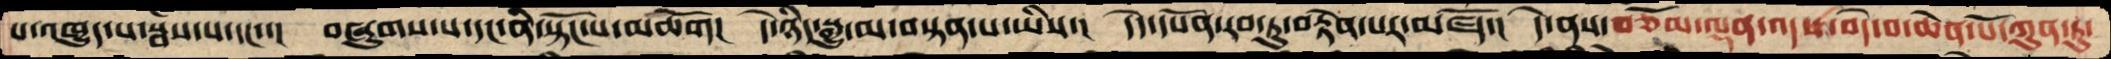པ་འཁྱུད་པ་སྦས་པ་དང་་།  བཞུགས་པ་དང་ནི་སྟོང་པ་མཆོག།  དེ་ཉིད་སྒྱུ་མ་བསྟན་པ་ཡིས་།  དེད་དཔོན་རབ་ཏུ་བརྟེན་པར་མཛོད་།  དེ་ནས་བཅོམ་ལྡན་འདས་བདེ་བ་ཆེན་པོ་ཀུན་ཏུ་
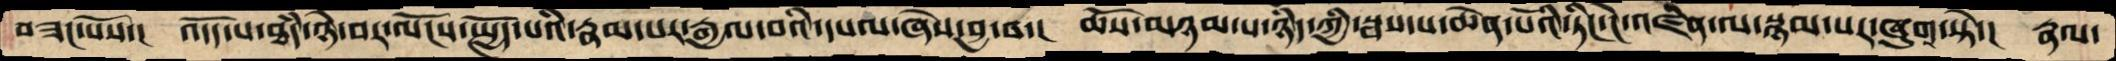བཟང་པོས་།  འོདད་པ་ཐཾད་ཉེ་བར་ལོངས་སྤྱོད་པའི་རྣམ་པར་རྒྱལ་བའི་དཔལ་ཞེས་བྱ་བ་།  ཆོས་མཉམ་པ་ཉིད་ཀྱི་སྦས་པ་ཆེན་པོའི་ཏིང་ངེ་འཛིན་ལ་སྙམ་པར་ཞུགས་ཏེ་།  རྣལ་
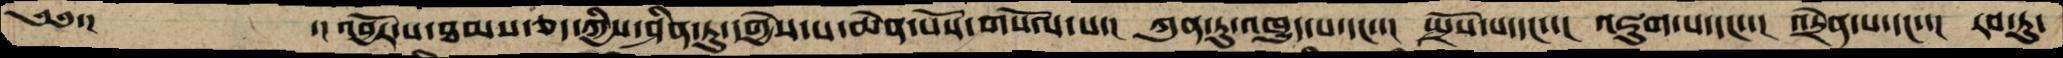༄༅་།      ་།འབྱོར་པ་ཐམས་ཅད་ཀྱིས་ཤིན་ཏུ་དགྱེས་པ་ཆེན་པོས་གསོལ་པ་།  ཀུན་ཏུ་འཁྱུད་པ་དང་་།  སྤྲོས་པ་དང་་།  འཇུག་པ་དང་་།  འདྲེན་པ་དང་་།  རབ་ཏུ་
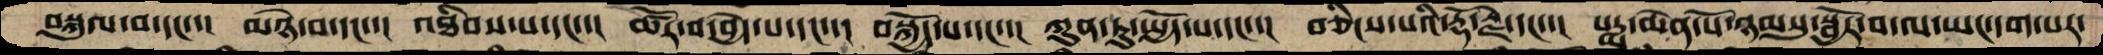བསྐུལ་བ་དང་་།  མཉེ་བ་དང་་།  འཐིབས་པ་དང་་།  ཚོར་བར་བྱེད་པ་དང་་།  བསྐྱོད་པ་དང་་།  ཀུན་ཏུ་སྤྱོད་པ་དང་་།  བཅིང་པའི་རྡོ་རྗེ་དང་་།  པདྨ་ཆེན་པོ་ཉམསུ་སྦྱོར་བ་ལ་ཡང་དག་པར་
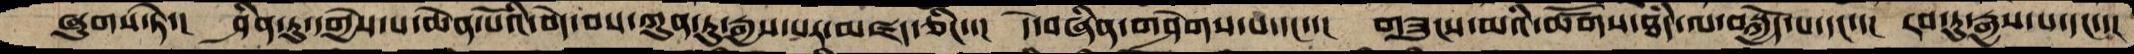ཞུགས་ཏེ་།  ཤིན་ཏུ་དགྱེས་པ་ཆེན་པོའི་བདེ་བས་ཀུན་ཏུ་རྒྱས་པར་མཛད་ཅིང་་།  དེ་བཞིན་གཤེགས་པ་དང་་།  གཟུངས་མའི་ཚོགས་ཐཾད་ལ་བསྐྱོད་པ་དང་་།  རབ་ཏུ་རྒྱས་པ་དང་་།
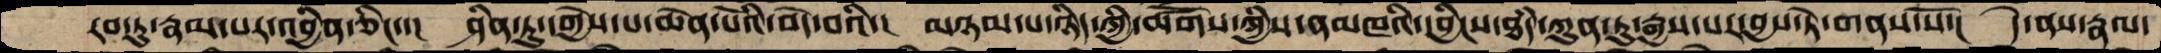རབ་ཏུ་རྣམ་པར་འབྱིན་ཅིང་་།  ཤིན་ཏུ་དགྱེས་པ་ཆེན་པོའི་བདེ་བའི་།  མཉམ་པ་ཉིད་ཀྱི་ཚོགས་ཀྱིས་ནམཁའི་དབྱིངས་ཐཾད་ཀུན་ཏུ་རྒྱས་པར་བྱས་ཏེ་གནས་སོ་།  དེ་ནས་རྣལ་
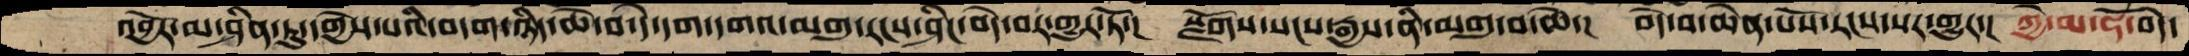འབྱོར་ལ་ཤིན་ཏུ་དགྱེས་པའི་བདག་ཉིད་ཆེ་བ་དེ་དག་དགའ་མགུ་རངས་ཤིང་བདེ་བར་གྱུར་ཏོ་།  སྫོགས་སངས་རྒྱས་ནི་མགུ་བ་ཆེ་།  བདེ་བ་ཆེན་པོས་རངས་པར་གྱུར་།  ཀྱེ་མ་ཧོ་བདེ་
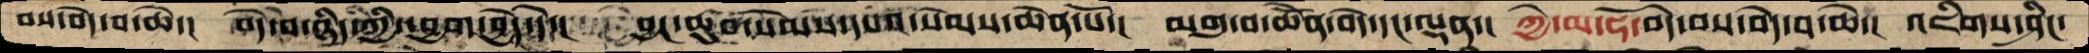བས་བདེ་བ་ཆེ་།  བདེ་བ་ཉིད་ཀྱི་ཕྱག་བྱེད་དེ་།   བྱང་ཆུབ་སེམས་དཔས་སེམས་ཆེན་པོ་།  མགུ་བ་ཆེནོ་བདེ་དང་ལྡན་།  ཀྱེ་མ་ཧོ་བདེ་བས་བདེ་བ་ཆེ་།  འཇིགས་ཤིང་
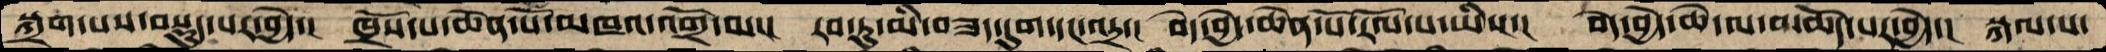སྐྲག་པས་བསྡུད་པར་བྱེད་།  ཁྲོས་པ་ཆེན་པོ་མཁའ་གྲོ་མ་།  རབ་ཏུ་མི་བཟད་དུག་དང་འདྲ་།  བདེ་བྱེད་ཆེན་པོ་རོལ་པ་ཡིས་།  བདེ་བྱེད་ཆེ་ལ་མཆོད་པར་བྱེད་།  སྐལ་པ་
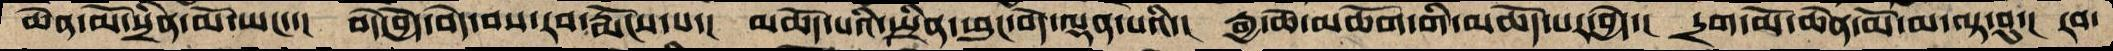ཆེན་མོ་སྲིན་མོ་ཡང་་།  བདེ་བྱེད་བདེ་བས་རབ་རྨོངས་པ་།  མཆོད་པའི་སྤྲིན་ཕུང་བདེ་ལྡན་པའི་།  རྒྱ་ཆེ་མཆོག་གི་མཆོད་པར་བྱེད་།  དྲག་མོ་ཆེན་མོ་མ་ལྟ་བུ་།  རབ་
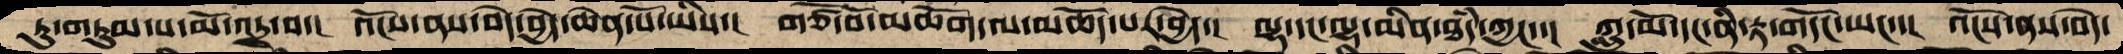ཏུ་གཏུམ་པ་མོ་འདྲ་བ་།  འོངས་ནས་བདེ་བྱེད་ཆེན་པོ་ཡིས་།  གཙོ་བོ་མཆོག་ལ་མཆོད་པར་བྱེད་།  ལྷ་དང་ལྷ་མིན་ཐདཾ་ཀྱང་་།  ཀླུ་མོ་དང་ནི་རྟ་གདོང་ཡང་་།  འོངས་ནས་བདེ་
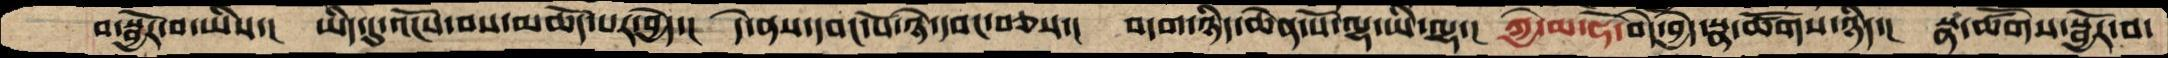བ་སྦྱོར་བ་ཡིས་།  ཡིད་དུ་འོངས་བས་མཆོད་པར་བྱེད་།  དེ་ནས་དབང་པོ་ཉེ་དབང་བཅས་།  བདག་ཉིད་ཆེན་པོ་ལྷ་ཡི་ལྷ་།  ཀྱེ་མ་ཧོ་བདེ་བྱེད་སྣ་ཚོགས་ཉིད་།  སྣ་ཚོགས་སྦྱོར་བ་
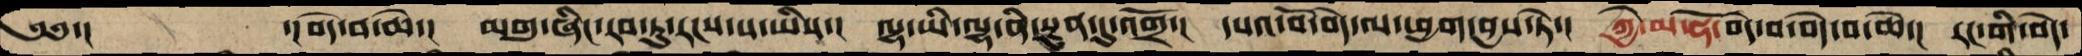༄༅་།      ་།བདེ་བ་ཆེ་།  མགུ་ཞིང་རབ་ཏུ་རངས་པ་ཡིས་།  ལྷ་ཡི་ལྷ་ནི་ཡུན་དུ་འགྲོ་།  དཔའ་བོ་བདེ་ལ་ཕྱག་བྱས་ཏེ་།  ཀྱེ་མ་ཧོ་བདེ་བ་བདེ་བ་ཆེ་།  རང་གི་བདེ་
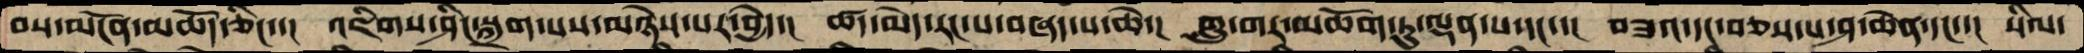བས་མངོན་མཆོད་ཅིང་་།  འཇིགས་ཤིང་སྐྲགས་པས་མཉེས་པར་བྱེད་། ཚད་མེད་རང་ས་བཞད་པ་ཆེ་།  གླུ་གར་མཆོག་ཏུ་ལྡན་པ་དང་་།  གཟའ་དང་བཅས་་པ་ཤ་ཆེན་དང་་།  སིལ་
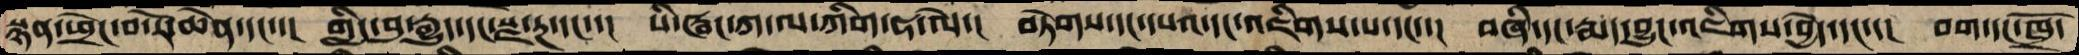སྙན་ཕྲེང་བ་རོ་ཆེན་དང་་།  གླིང་བུ་རྒྱུད་དང་སྫ་རྔ་དང་་།  པི་ཝང་ཀ་ལ་ཀིག་ཧ་ལེ་།  བཏེགས་དང་དཔའ་དང་འཇིགས་པ་དང་་།  བཞི་དང་རྨད་བྱུང་འཇིགས་བྱེད་དང་་།  བག་དང་ཁྲོ་
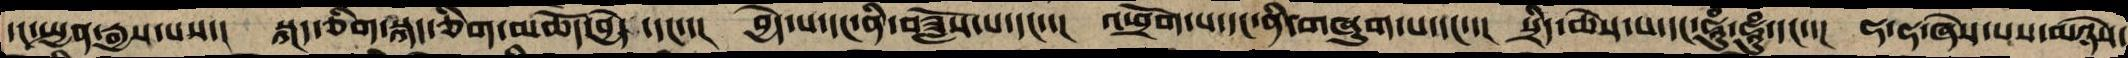དང་སྤྱན་རྒྱས་པས་།  སྐད་ཅིག་སྐད་ཅིག་མཆོད་བྱེད ་དང་་།  བྱེད་པ་དང་ནི་བཟློས་པ་དང་་།  འཕྲོག་པ་དང་ནི་གཞུག་པ་དང་་།  སྲིད་ཆེས་པ་དང་ཧཱུཾ་ཧཱུཾ་དང་་།  ཧ་ཧ་ཞེས་པས་མཉེས་
